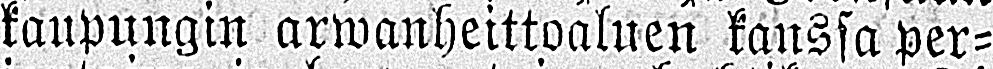kaupungin arwanheittoaluen kanssa per-
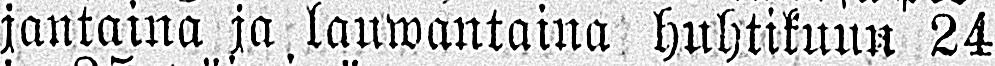jantaina ja lauwantaina huhtikuun 24
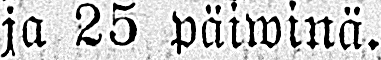ja 25 päiwinä.
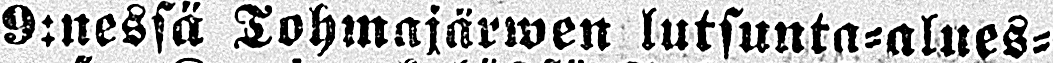9:nessä Tohmajärwen lutsunta-alues-
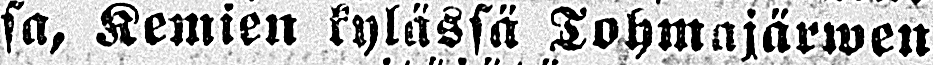sa, Kemien kylässä Tohmajärwen
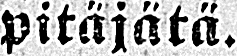pitäjätä.
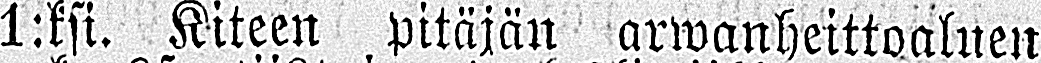1:ksi. Kiteen pitäjän arwanheittoaluen
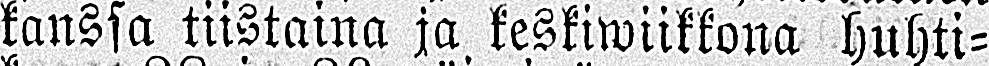kanssa tiistaina ja keskiwiikkona huhti-
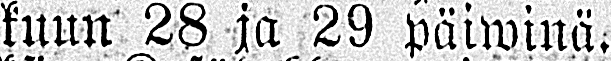kuun 28 ja 29 päiwinä.
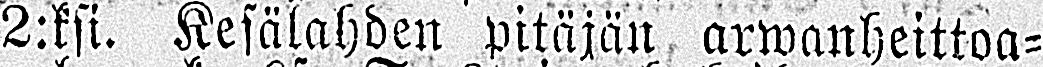2:ksi. Kesälahden pitäjän arwanheittoa-
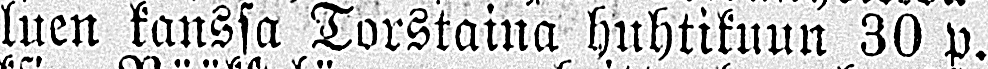luen kanssa Torstaina huhtikuun 30 p.
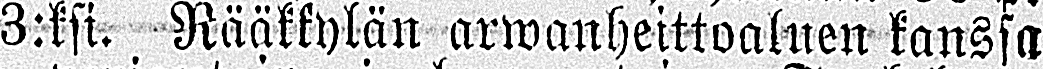3:ksi. Rääkkylän arwanheittoaluen kanssa
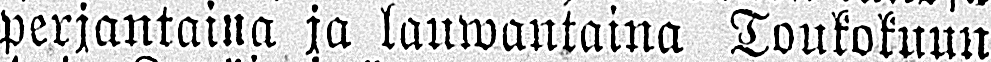perjantaina ja lauwantaina Toukokuun
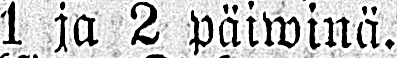1 ja 2 päiwinä.
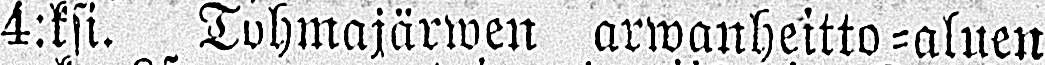4:ksi. Tohmajärwen arwanheitto-aluen
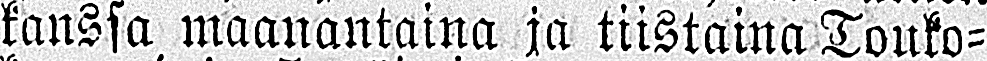kanssa maanantaina ja tiistaina Touko-
